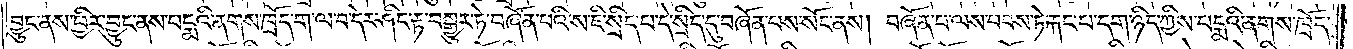བྱུང་ནས་ཕྱིར་བྱུང་ནས་པདྨའི་ནགས་ཁྲོད་ག་ལ་བ་དེར་ཤིང་རྟ་བསྒྱུར་ཏེ་བཞོན་པའི་ས་ཇི་སྲིད་པ་དེ་སྲིད་དུ་བཞོན་པས་སོང་ནས། བཞོན་པ་ལས་བབས་ཏེ་རྐང་པ་དག་ཉིད་ཀྱིས་པདྨའི་ནགས་ཁྲོད་
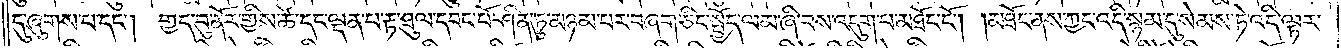དུ་ཞུགས་པ་དང༌། གྱད་བུ་ནོར་གྱིས་ཚེ་དང་ལྡན་པ་རྟ་ཐུལ་དབང་པོ་ཤིན་ཏུ་མཉམ་པར་བཞག་ཅིང་སྤྱོད་ལམ་ཞི་བས་འདུག་པ་མཐོང་ངོ༌། །མཐོང་ནས་ཀྱང་འདི་སྙམ་དུ་སེམས་ཏེ་འདི་ལྟར་
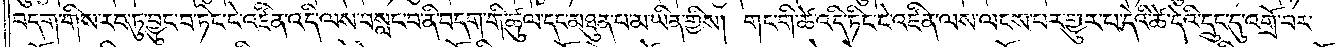བདག་གིས་རབ་ཏུ་བྱུང་བ་ཏིང་ངེ་འཛིན་འདི་ལས་བསླང་བ་ནི་བདག་གི་ཚུལ་དང་མཐུན་པ་མ་ཡིན་གྱིས། གང་གི་ཚེ་འདི་ཏིང་ངེ་འཛིན་ལས་ལངས་པར་གྱུར་པ་དེའི་ཚེ་དེའི་དྲུང་དུ་འགྲོ་བར་
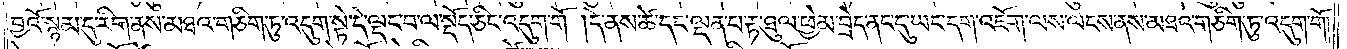བྱའོ་སྙམ་དུ་རིག་ནས་མཐའ་གཅིག་ཏུ་འདུག་སྟེ་དེ་ལྡང་བ་ལ་སྡོད་ཅིང་འདུག་གོ །དེ་ནས་ཚེ་དང་ལྡན་པ་རྟ་ཐུལ་ཕྱེ་མ་བྲེད་ནང་དུ་ཡང་དག་འཇོག་ལས་ལངས་ནས་མཐའ་གཅིག་ཏུ་འདུག་གོ།
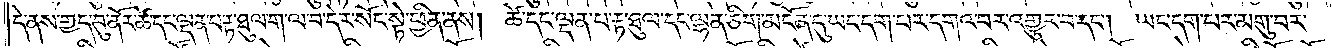དེ་ནས་གྱད་བུ་ནོར་ཚེ་དང་ལྡན་པ་རྟ་ཐུལ་ག་ལ་བ་དེར་སོང་སྟེ་ཕྱིན་ནས། ཚེ་དང་ལྡན་པ་རྟ་ཐུལ་དང་ལྷན་ཅིག་མངོན་དུ་ཡང་དག་པར་དགའ་བར་འགྱུར་བ་དང༌། ཡང་དག་པར་མགུ་བར་
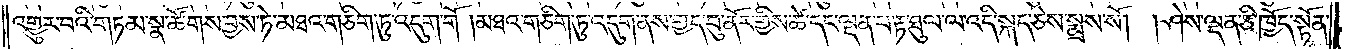འགྱུར་བའི་གཏམ་སྣ་ཚོགས་བྱས་ཏེ་མཐའ་གཅིག་ཏུ་འདུག་གོ །མཐའ་གཅིག་ཏུ་འདུག་ནས་གྱད་བུ་ནོར་གྱིས་ཚེ་དང་ལྡན་པ་རྟ་ཐུལ་ལ་འདི་སྐད་ཅེས་སྨྲས་སོ། །ཤེས་ལྡན་ཅི་ཁྱོད་སྟོན་
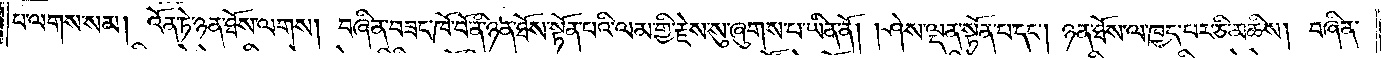པ་ལགས་སམ། འོན་ཏེ་ཉན་ཐོས་ལགས། བཞིན་བཟང་ཁོ་བོ་ནི་ཉན་ཐོས་སྟོན་པའི་ལམ་གྱི་རྗེས་སུ་ཞུགས་པ་ཡིན་ནོ། །ཤེས་ལྡན་སྟོན་པ་དང༌། ཉན་ཐོས་ལ་ཁྱད་པར་ཅི་མཆིས། བཞིན་
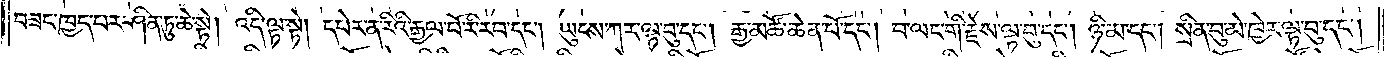བཟང་ཁྱད་པར་ཤིན་ཏུ་ཆེ་སྟེ། འདི་ལྟ་སྟེ། དཔེར་ན་རིའི་རྒྱལ་པོ་རི་རབ་དང༌། ཡུངས་ཀར་ལྟ་བུ་དང༌། རྒྱ་མཚོ་ཆེན་པོ་དང༌། བ་ལང་གི་རྗེས་ལྟ་བུ་དང༌། ཉི་མ་དང༌། སྲིན་བུ་མེ་ཁྱེར་ལྟ་བུ་དང༌།
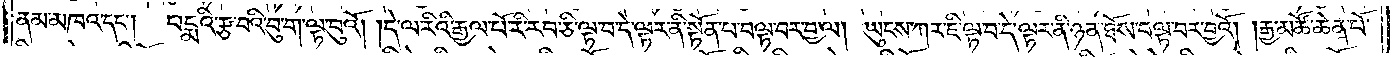ནམ་མཁའ་དང༌། པདྨའི་རྩ་བའི་བུ་ག་ལྟ་བུའོ། །དེ་ལ་རིའི་རྒྱལ་པོ་རི་རབ་ཅི་ལྟ་བ་དེ་ལྟར་ནི་སྟོན་པ་བལྟ་བར་བྱ་ལ། ཡུངས་ཀར་ཇི་ལྟ་བ་དེ་ལྟར་ནི་ཉན་ཐོས་བལྟ་བར་བྱའོ། །རྒྱ་མཚོ་ཆེན་པོ་
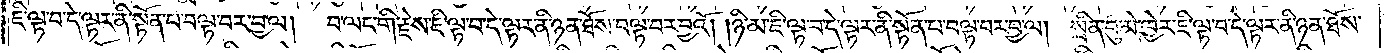ཇི་ལྟ་བ་དེ་ལྟར་ནི་སྟོན་པ་བལྟ་བར་བྱ་ལ། བ་ལང་གི་རྗེས་ཇི་ལྟ་བ་དེ་ལྟར་ནི་ཉན་ཐོས་བལྟ་བར་བྱའོ། །ཉི་མ་ཇི་ལྟ་བ་དེ་ལྟར་ནི་སྟོན་པ་བལྟ་བར་བྱ་ལ། སྲིན་བུ་མེ་ཁྱེར་ཇི་ལྟ་བ་དེ་ལྟར་ནི་ཉན་ཐོས་
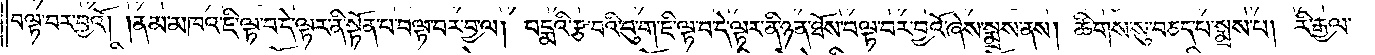བལྟ་བར་བྱའོ། །ནམ་མཁའ་ཇི་ལྟ་བ་དེ་ལྟར་ནི་སྟོན་པ་བལྟ་བར་བྱ་ལ། པདྨའི་རྩ་བའི་བུ་ག་ཇི་ལྟ་བ་དེ་ལྟར་ནི་ཉན་ཐོས་བལྟ་བར་བྱའོ་ཞེས་སྨྲས་ནས། ཚིགས་སུ་བཅད་པ་སྨྲས་པ། རི་རྒྱལ་
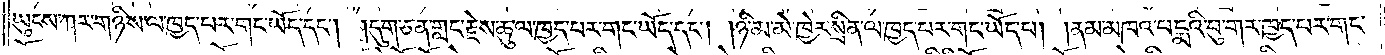ཡུངས་ཀར་གཉིས་ལ་ཁྱད་པར་གང་ཡོད་དང༌། །དུག་ཅན་གླང་རྗེས་ཆུ་ལ་ཁྱད་པར་གང་ཡོད་དང༌། །ཉི་མ་མེ་ཁྱེར་སྲིན་ལ་ཁྱད་པར་གང་ཡོད་པ། །ནམ་མཁའ་པདྨའི་བུ་གར་ཁྱད་པར་གང་
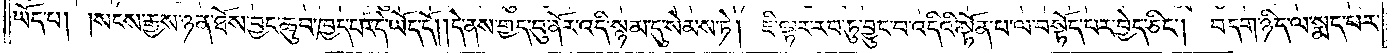ཡོད་པ། །སངས་རྒྱས་ཉན་ཐོས་བྱང་ཆུབ་ཁྱད་པར་དེ་ཡོད་དོ། །དེ་ནས་གྱད་བུ་ནོར་འདི་སྙམ་དུ་སེམས་ཏེ།  ཇི་ལྟར་རབ་ཏུ་བྱུང་བ་འདིའི་སྟོན་པ་ལ་བསྟོད་པར་བྱེད་ཅིང༌། བདག་ཉིད་ལ་སྨད་པར་
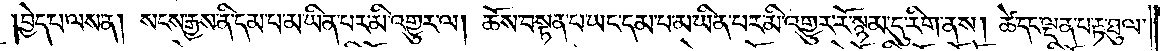བྱེད་པ་ལས་ན། སངས་རྒྱས་ནི་དམ་པ་མ་ཡིན་པར་མི་འགྱུར་ལ། ཆོས་བསྟན་པ་ཡང་དམ་པ་མ་ཡིན་པར་མི་འགྱུར་རོ་སྙམ་དུ་རིག་ནས། ཚེ་དང་ལྡན་པ་རྟ་ཐུལ་
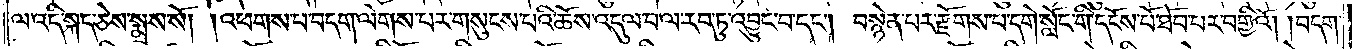ལ་འདི་སྐད་ཅེས་སྨྲས་སོ། །འཕགས་པ་བདག་ལེགས་པར་གསུངས་པའི་ཆོས་འདུལ་བ་ལ་རབ་ཏུ་འབྱུང་བ་དང༌། བསྙེན་པར་རྫོགས་པ་དགེ་སློང་གི་དངོས་པོ་ཐོབ་པར་བགྱིའོ། །བདག་
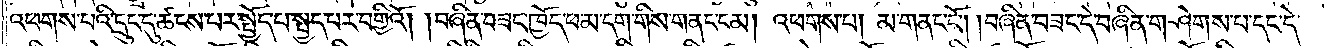འཕགས་པའི་དྲུང་དུ་ཚངས་པར་སྤྱོད་པ་སྤྱད་པར་བགྱིའོ། །བཞིན་བཟང་ཁྱོད་ཕ་མ་དག་གིས་གནང་ངམ། འཕགས་པ། མ་གནང་ངོ༌། །བཞིན་བཟང་དེ་བཞིན་གཤེགས་པ་དང་དེ་
